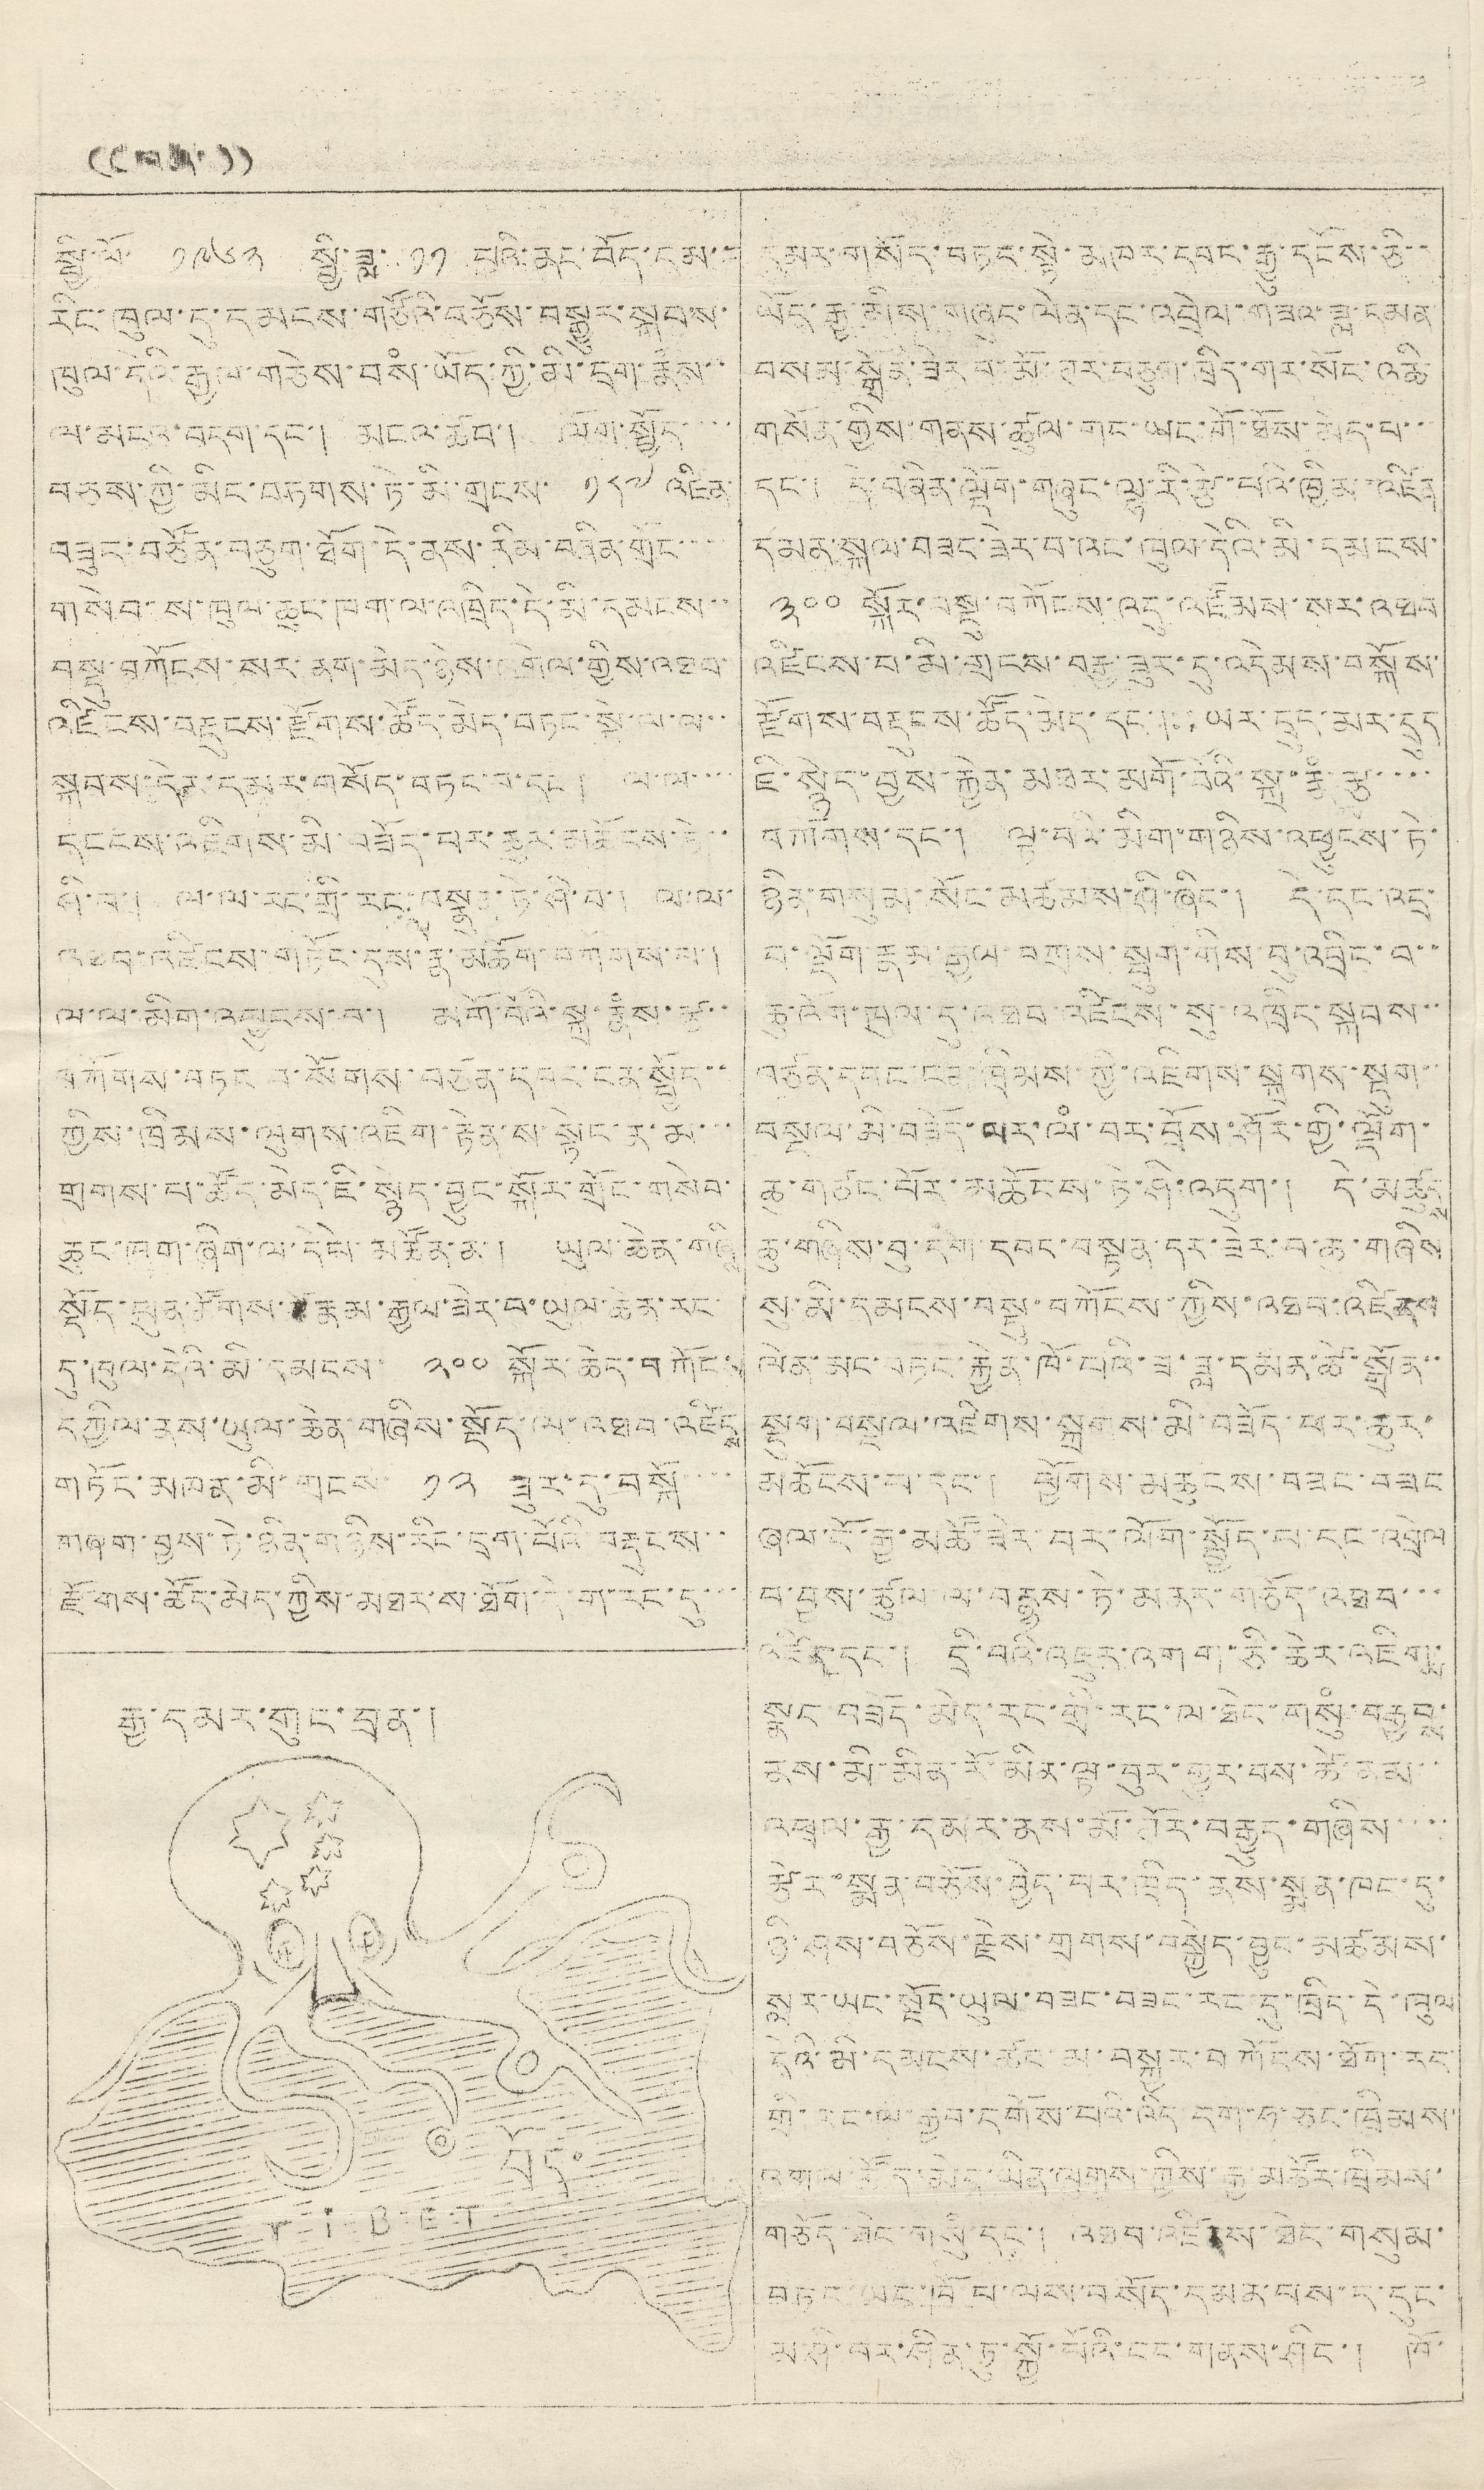(( བཞི་ ))
སྤྱི་ལོ་ ༡༩༦༢ སྤྱི་ཟླ་ ༡༡ པའི་ནང་བོད་ངམ་་
རིང་ཁུལ་དུ་དམངས་གཙོའི་བཅོས་བསྒྱུར་སྐབས་
ཁུལ་དེའི་རྒྱལ་གཅེས་བསཾ་ཡོད་ཀྱི་མི་དྲག་རྣཾས་་
ལ་མངའ་བདག་དང་། མངའ་ཆབ་། ལོག་སྤྱོད་་་་
བཅས་ཀྱི་མིང་བཏགས་ཏེ་མི་གྲངས་ ༡༨༧ འཛིན་
བཟུང་བཙོན་བཅུག་ཐོག་དེ་ནས་རིམ་བཞིན་གྲོང་་་་
གསེབ་ས་ཁུལ་ཆུང་ཁག་ལ་འཁྲིད་དེ་མི་དམངས་་
བསྡུ་བཀོངས་སར་ནག་མེད་ཉེས་འགྲེལ་གྱིས་འཐབ་
འཛིངས་བརྡུངས་རྫོགས་ཚོད་མེད་བཏང་སྟེ་ལ་ལ་་
སྐབས་དེར་དམར་གསོད་བཏང་བ་དང་། ལ་ལ་་་་
དངངས་འཇིགས་མི་བཟོད་པར་ཆུར་མཆོངས་ཏེ་་
ཤི་བ་། ལ་ལ་རང་གྲི་རང་བསྣུན་ཏེ་ཤི་བ་། ལ་ལ་
འཐབ་འཛིངས་གཏོང་དུས་རྣ་མཆོག་བཀོགས་པ་།
ལ་ལ་མིག་འབྱུངས་བ་། མགོ་བོའི་སྐྲ་རྣཾས་རྩ་་
བཀོགས་བཏང བ་སོགས་བཙན་དབང་ངན་སྤྱོད་་
ཀྱིས་ཁྲིམས་ལུགས་འཇིག་རྟེན་ས་སྟེང་ན་མ་་་
གྲགས་པ་ཚོད་མེད་ཇི་སྙེད་བྱུང་སྐོར་གྲོང་གསེབ་
ཆུང་ཁག་ཞིག་ལ་དཔེ་མཚོན་ན་། ཡུལ་ཆེན་གཞི
ས
སྡོད་ཕུན་ཚོགས་ རྣམ་རྒྱལ་ཟེར་བ་ཡུལ་ཆེན་རང་
དུ་ཁུལ་དེའི་མི་དམངས་ ༢༠༠ སྐོར་ཆེད་བཀོང་
དཀྱིལ་ནས་ཡུལ་ཆེན་གཞིས་སྡོད་ལ་འཐབ་འཛིང
ས
གཏོང་མཁན་མི་གྲངས་ ༡༢ ཟུར་དུ་བསྐོ་་་་
གཞག་བྱས་ཏེ་ཉིན་གཉིས་རིང་དྲག་པོའི་བརྡུངས་་
རྫོགས་ཚོད་མེད་ཀྱིས་མཐར་ས་ཐོག་དེ་ག་རང་དུ་་་
དམར་གསོད་བཏང་སྟེ་མཁར་དབང་རྒྱུ་དངོས་ཅི་་
ཡོད་རྒྱ་མིས་གཞུང་ལེན་དང་འབྲེལ་གཟའ་ཟླ་དམན
བསམ་སྒྲོན་ཟེར་བ་མོ་ཊར་བཅུག་ཁྲིད་གར་སོང་འཆི་
གསོན་གྱིས་གནས་ཚུལ་གང་ཡང་གོ་ཐོས་མེད་པ་་་
དང་། དེ་བཞིན་ལྡོག་གཞུང་ལྷ་རི་རྩེ་པའི་ཁྱིམ་འཛིན
དམན་སྐལ་བཟང་ཟེར་བ་འང་ཁུལ་དེའི་མི་དམངས་
༣༠༠ སྐོར་བསྡུ་བཀོངས་འདུ་འཛོམས་སར་འཐབ
འཛིངས་པ་མི་གྲངས་བརྒྱ་ཟུར་དུ་འདེམས་བསྐོས་
རྫོགས་བརྡུངས་ཚོད་མེད་དང་། ཡར་དྲུད་མར་དྲུད
ཇི་སྙེད་བྱས་རྐྱེན་མཐར་མགོ་བོའི་སྐྲ་རྣཾ
ས
་རྩ་་་་
བཀོགས་དང་། ལྟ་བའི་མིག་གཉིས་འཕྱུངས་ཏེ་
ཉིན་གསུམ་སོང་མཚམས་ཤི་ཞིང་། དེ་དང་འདྲ་
བ་ལྡོག་རྣམ་རྒྱལ་བཀྲས་སྤུག་གིས་བུ་འབྲིང་བ་་
ཆུ་འོག་ཁུལ་དུ་འཐབ་འཛིངས་སུ་འཁྲིང་སྐབས་་
བཙན་དབང་ངམ་ཁྲིམས་ཀྱི་འཇིགས་སྐྲགས་སྡུག་་
བསྔལ་མི་བཟོད་ལར་ལཾ་བར་བྲོས་ཤོར་གྱི་ལྡོག་
ཆུ་གཙང་པོར་མཆོངས་ཏེ་ཤི་འདུག་། དེ་མཚུངས་
ཆུ་གཞིས་བུ་དགེ་དབང་བསྟན་དར་ཟེར་བ་ཆུ་གཞིས
སུ་མི་དམངས་བསྡུ་བཀོངས་ཀྱིས་འཐབ་འཛིངས་
ལེན་མང་བཏང་རྐྱེན་ཁོ་པའི་ཟ་ཟླ་དམར་ཚེ་སྒྲོན་་
སྡུག་བསྔལ་འཛིགས་སྐྲགས་མི་བཟོད་ཕར་ཆུར་
མཆོངས་བ་དང་། ཕྱོགས་མཚུངས་བཟང་བཟང
ཞལ་ངོ་རྒྱ་མཚོ་ཟེར་བར་ལོག་སྤྱོད་པ་དང་འབྲེལ
བ་བྱས་ཚུལ་ལ་བརྙས་ཏེ་མནར་གཅོད་འཐབ་་་
འཛིན་དང་། དྲི་བའི་འཇུར་འགག་ཅི་ཆེར་འཇིགས་
སྣང་བཟོད་མེད་རང་གྲི་རང་གྲི་རང་ལ་ཐེང་གསུཾ་བརྒྱབས་
ནས་མི་མིན་རོ་མིན་ལྟ་བུར་གྱུར་བས་ཚེ་ནམ་་
འཕྲལ་རྒྱ་དམར་ནས་མོ་ཊོར་བརྒྱུད་གཞིས་་་་
རྩེར་སྨན་བཅོས་བྱེད་པར་ཁྲིད་ནས་སྨན་ཁང་དུ་
ཉི་ཤས་བཅོས་རྗེས་གྲགས་བསྐྱེད་བྱུང་མཚམས་
སླར་ཡང་སྔོད་ཡུལ་བཟང་བཟང་རང་དུ་ཁྲིད་དེ་ཁུལ
དེའི་མི་དམངས་ཚང་མ་བསྐྱར་བཀོངས་ཐོག་རང་
གྲི་རང་ལ་རྒྱབ་དགོས་པའི་འདི་དག་ཧ་ཅང་ཁྲིམས་
འགལ་ཚོད་མེད་ཡིན་ལུགས་གྱིས་རྒྱ་མཚོར་ཁྲིམས་
གཅོད་ཟེང་གསུཾ་དང་། འཐབ་འཛིངས་ཐེང་གསུམ་
བཏང་ཡང་ཁོ་པ་ལས་བསོད་དམན་པས་ད་དུང་
མ་ཤི་བར་ཤིན་ཏུ་སྐྱོ་པོའི་ངང་གནས་ཤིང་། ཁོ་
རྒྱ་དམར་གུང་བྲན་།
བོད་
T I B E T
